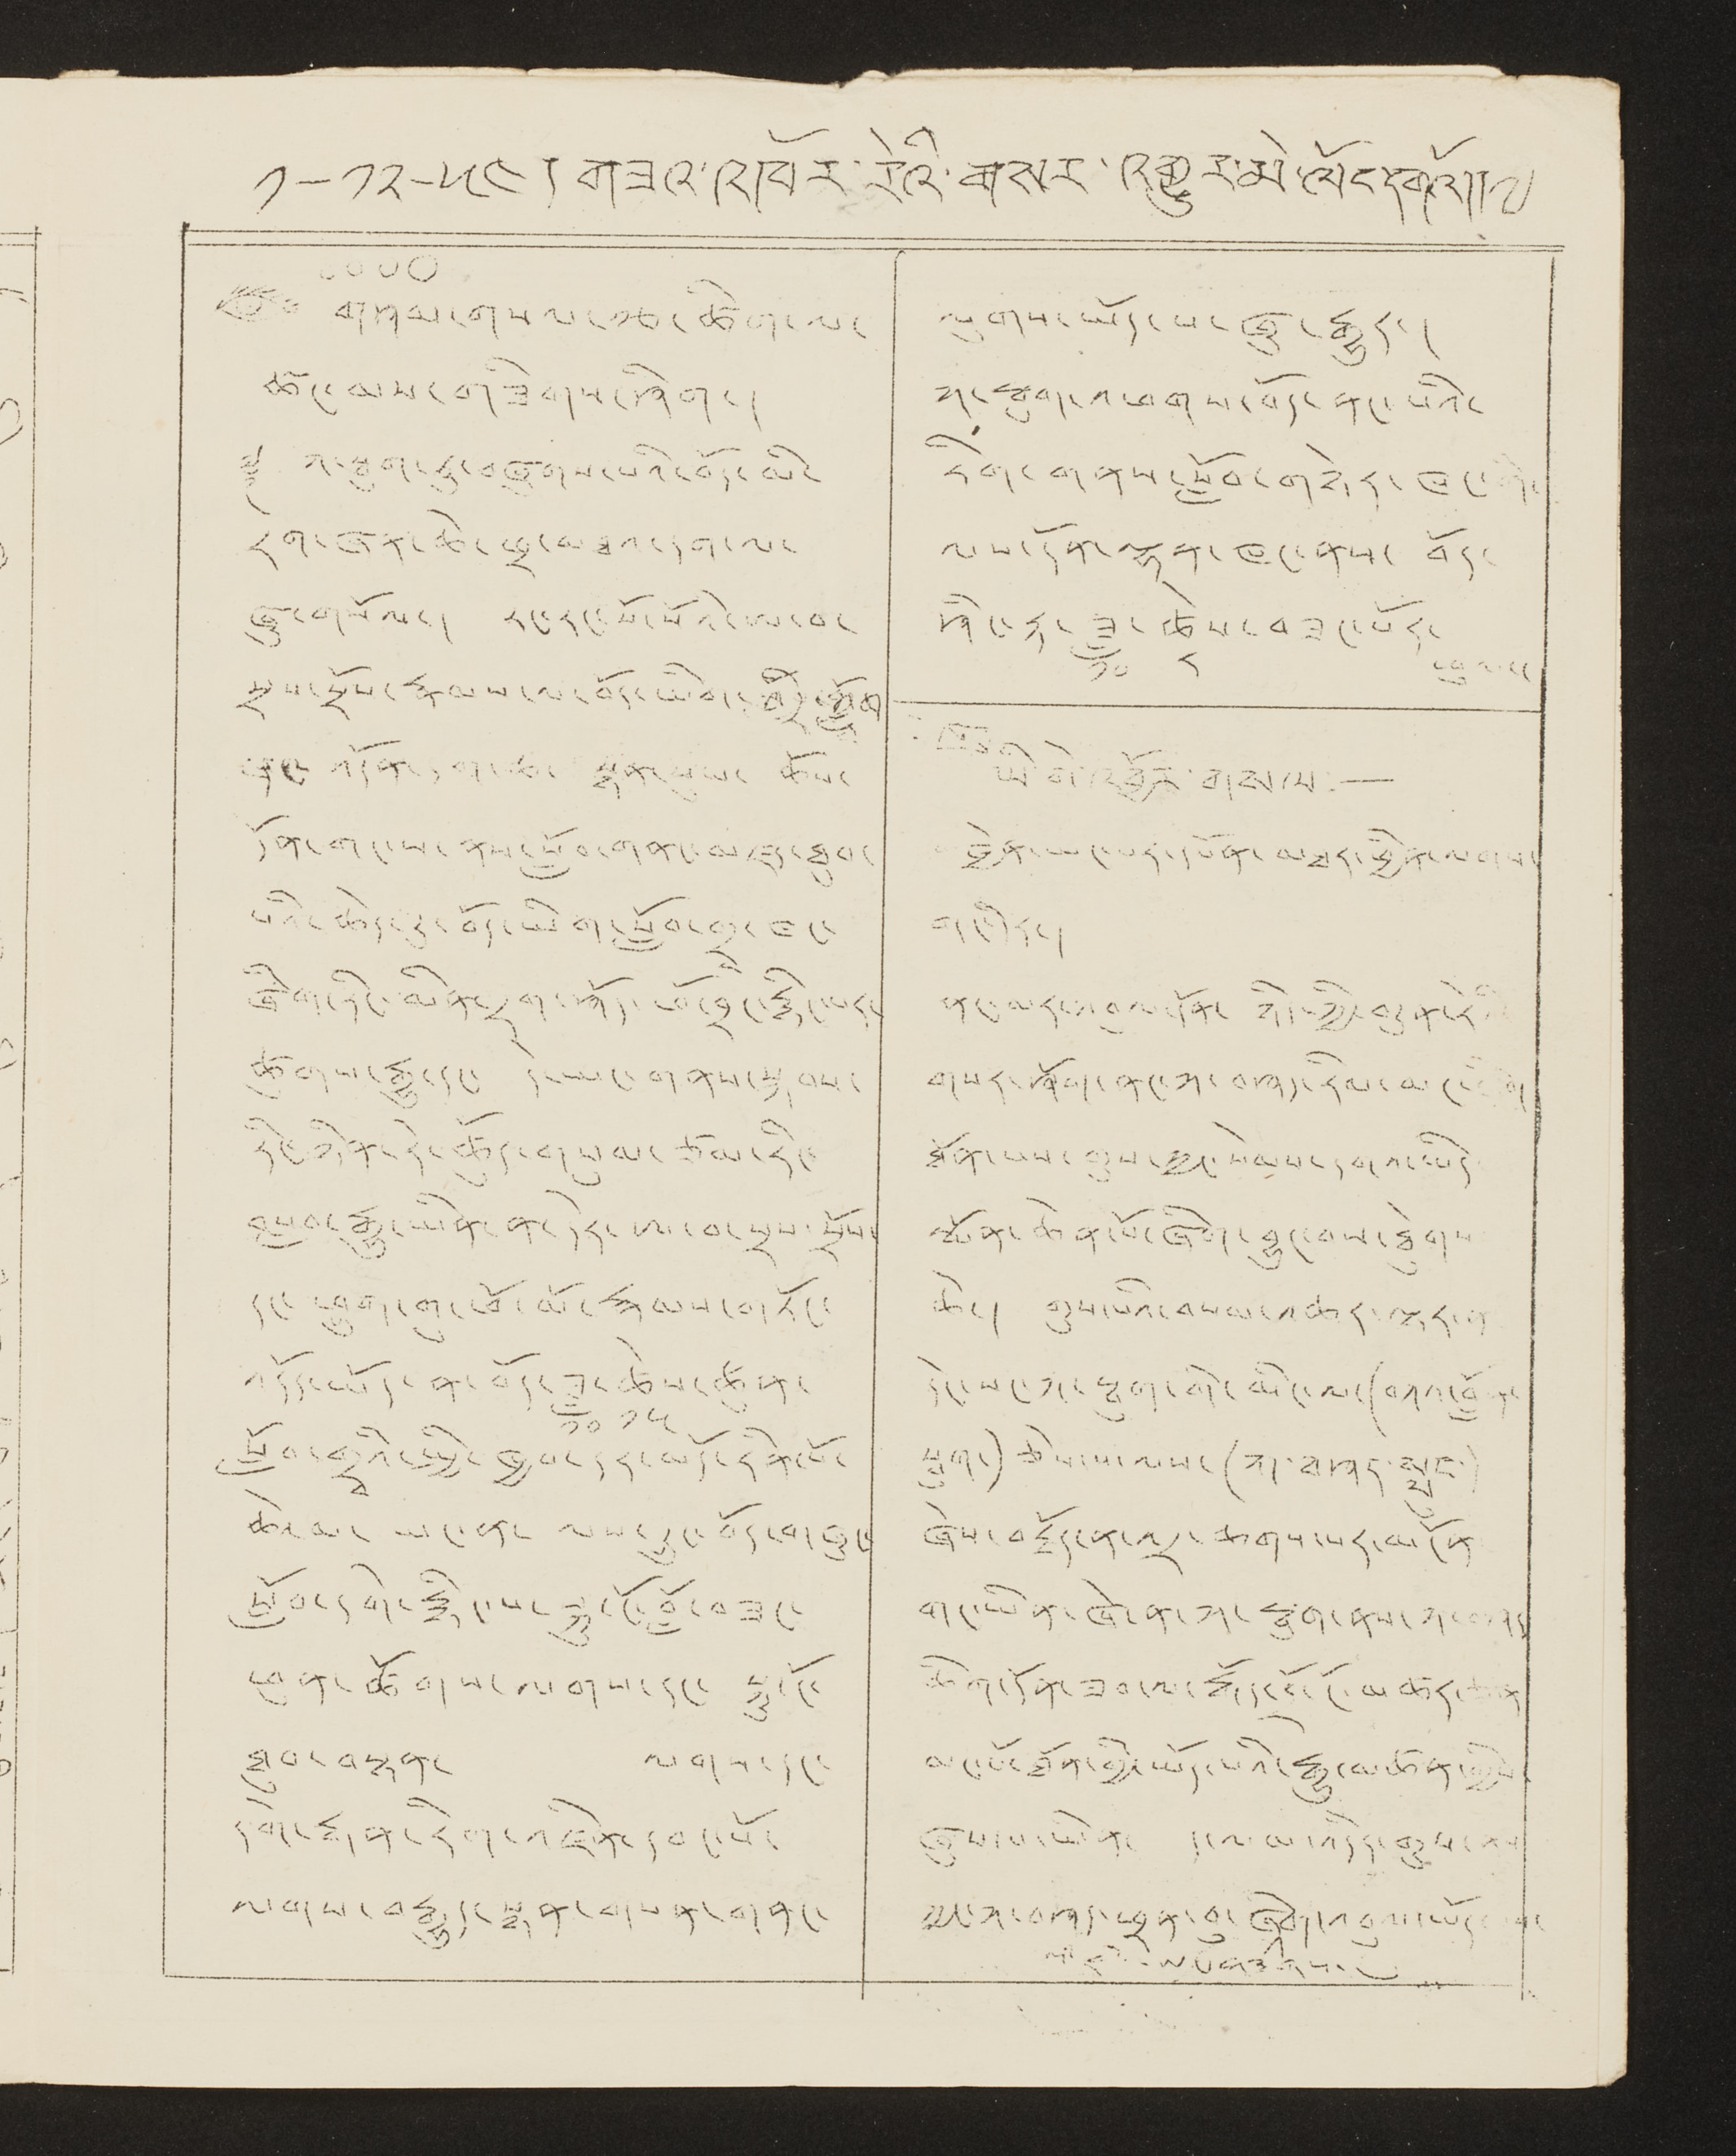༡-༡༢-༥༤། གཟའ་འཁོར་རེའི་གསར་འགྱུར་མེ་ལོང་དགེའོ།།༧
༠༠༠
༗ གཤམ་གསལ་རྩ་ཚིག་ལ་
ཚང་མས་གཟིགས་ཤིག་།
༈ ཀ་སྤུག་ཏུ་བཞུགས་པའི་བོད་མི་
དྲག་ཞན་ཆེ་ཕྲ་མཐའ་དག་ལ་
ཞུ་གསོལ།རང་རང་སོ་སོའི་བ་
སྲས་སྲོས་རྣམས་ལ་བོད་ཡིག་འདྲི་ཀློག་
ཞང་འདོན་དག་ཆ་སྙན་ཕུལ་ཆོས་
དོན་གང་ས་ནས་སློབ་གནང་མཛད་ཐུབ་
པའི་ཆེད་དུ་བོད་ཡིག་སློབ་ཁང་
ཞིག་རིང་མིན་དྲག་བཀོད་ཕོ་བྲང་རྙིང་པར་
ཚུགས་རྒྱ་དང་ དེ་ཡང་གནས་སྐབས་
རིང་ཉིན་རེ་ཚོུད་གསུམ་ཙམ་རིང་
བསླབ་རྒྱུ་ཡིན་ན་དེར་ཨ་བ་སྲས་སྲོས་
དང་ཕྲུག་གུང་ཕོ་མོ་རྣམས་གཏོང་
འདོད་ཡོད་ན་བོ་ཟླ་
༡༠
ཚེས་
༡༥
ཚུན་
སློབ་གྲྭའི་སྤྱི་ཁྱབ་དར་མདོ་རིན་པོ་
ཆེའམ་ཡང་ན་ལས་དྲུང་བོད་གཞུང་
སློབ་དགེ་རྙིང་པ་སྐུ་ངོ་བློ་བཟང་
ཕུན་ཚོགས་ལགས་དང་ སྐུ་ངོ་
ཐུབ་བསྟན་ ལགས་དང་
དགེ་རྒན་རིགས་འཛིན་དབང་པོ་
ལགས་བརྒྱུད་སྙན་གསན་གནང་
ལུགས་ཡོད་པ་ཞུ་རྒྱུར།
ཀ་སྤུག་འཕགས་བོད་ནང་པའི་
རིག་གནས་སློབ་གཉེར་ཁག་གི་
ལས་དོན་ལྷན་ཁང་ནས་བོད་
ཤིང་རྟ་ཟླ་
༡༠
ཚེས་
༨
བཟང་པོར་
ཕུལ།
ཡི་གེ་འབྱོར་གསལ:—
མཁྱེན་ཡང་པར་དཔོན་མཐར་ཕྱིན་ལགས་
གང་དེར།
ནང་མར་འབུལ་དོན་ཉིད་ཀྱི་བདུན་རེའི་
གསར་ཤོག་ནང་ཀ་བཤད་རིལ་མང་རིག་
ཐོན་པས་གུས་ཀྱང་སེམས་དགའ་ཡིད
སྨོན་ཆེན་པོ་ཞིག་བྱུང་བས་ཐེུགས་
ཆེ། གུས་པའི་བསམ་འཆར་ལྟར་ན
དེང་སང་ཀ་སྟུག་གི་མིང་ལ་(བཀའ་བློན་
སྤུག་) ཅེས་པ་ལས་ (ཀ་བཤད་སྤུང་)
ཞེས་བརྗོད་ན་འདྲ་ཆགས་པར་མངོན
གང་ཡིན་ཞེ་ན་ཀ་སྤུག་ནས་ཀ་བཤད་
ཆིག་དོན་ཟབ་ལ་རྒོད་བོ་ངོ་མཚར་ཅན
མང་པོ་ཐོན་གྱི་ཡོད་པའི་རྒྱུ་མཚན་གྱིས་
ཞུགས་པ་ཡིན། ད་ལམ་འདིར་གུས་ནས
ཀྱང་ཀ་བཤད་ཕྲན་བུ་ཞིག་འབུལ་ཡོད་པས་
འདི་ཇོ་ཨང་གཟིགས།
